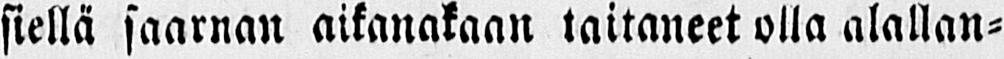siellä saarnan aikanakaan taitaneet olla alallan-
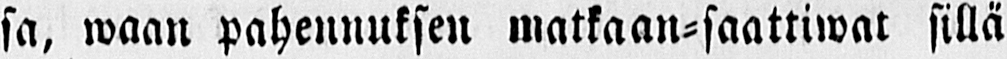sa, waan pahennuksen matkaan-saattiwat sillä
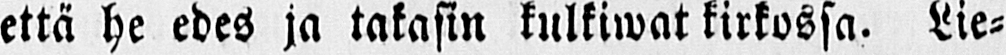että he edes ja takasin kulkiwat kirkossa. Lie-
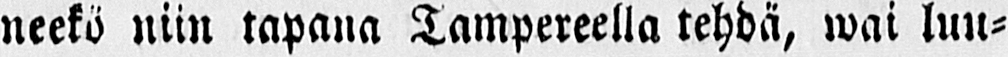neekö niin tapana Tampereella tehdä, wai luu-
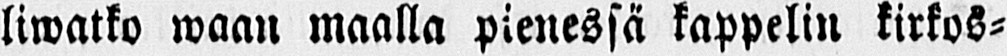liwatko waan maalla pienessä kappelin kirkos-
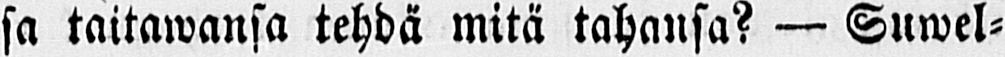sa taitawansa tehdä mitä tahansa? — Suwel-
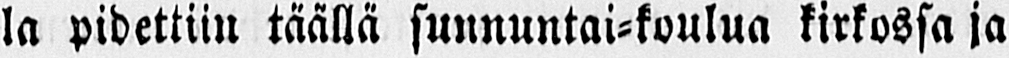la pidettiin täällä sunnuntaikoulua kirkossa ja
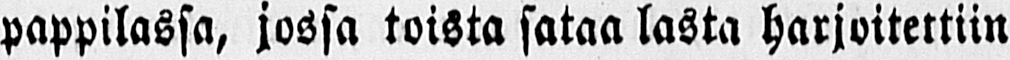pappilassa, jossa toista sataa lasta harjoitettiin
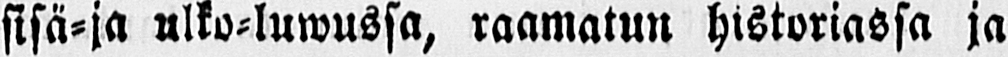sisä-ja ulko-luwussa, raamatun historiassa ja
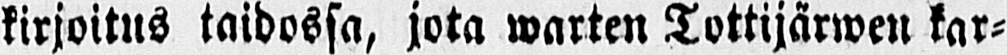kirjoitus taidossa, jota warten Tottijärwen kar-
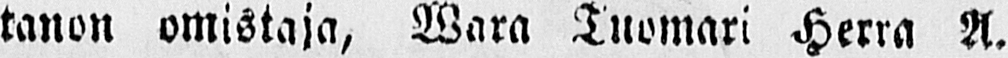tanon omistaja, Wara Tuomari Herra A.
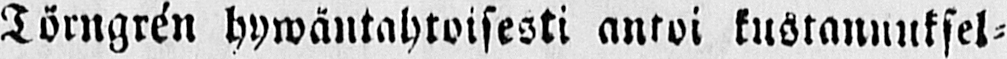Törngrén hywäntahtoisesti antoi kustannuksel-
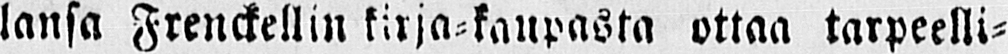lansa Frenckellin kirja-kaupasta ottaa tarpeelli-
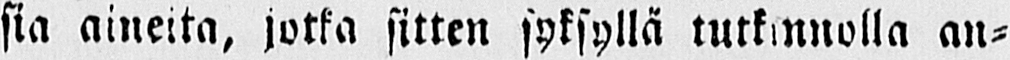sia aineita, jotka sitten syksyllä tutkinnolla an-
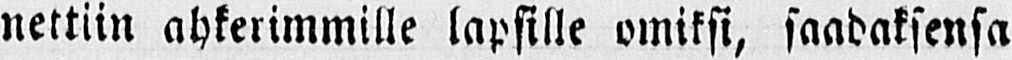nettiin ahkerimmille lapsille omiksi, saaduksensa
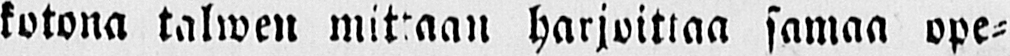kotona talwen mittaan harjoittaa samaa ope-
